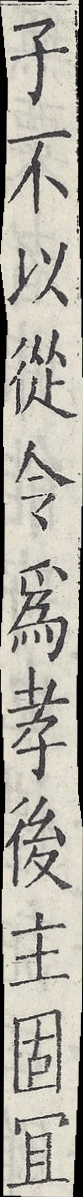子不以從令為孝後主固宜
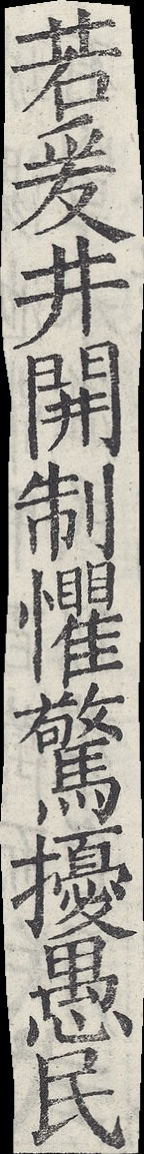若爰井開制懼驚擾愚民
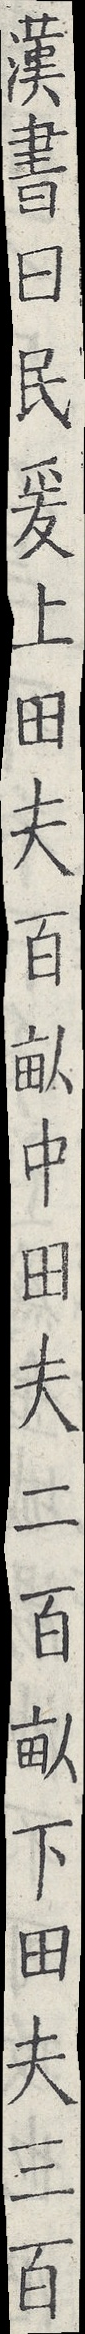漢書曰民爰上田夫百畝中田夫二百畝下田夫三百
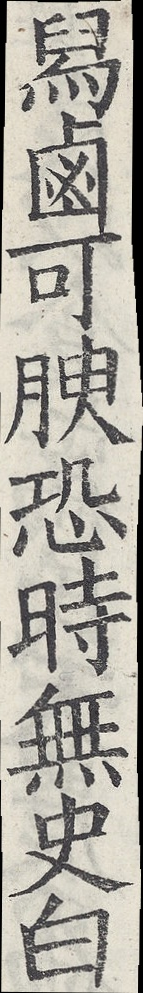舄鹵可腴恐時無史白
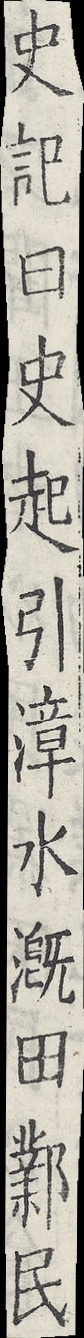史記曰史起引漳水溉田鄴民
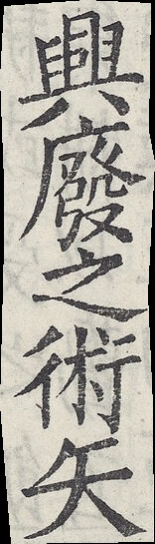興廢之術矢
